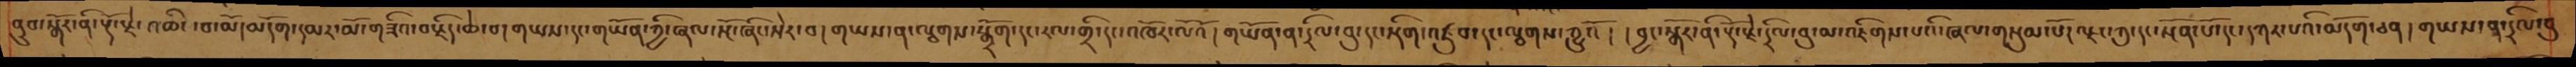ནུབ་སྒོར་ནི་རྡོ་རྗེ་འཆིང་བ་མོ།མདོག་དམར་མོ་གཟིའ་བརྗིད་ཆེ་བ།གཡས་དང་གཡོན་ཀྱི་ཞལ་སྔོ་ཞིང་སེར་བ། གཡས་ན་ལྕགས་སྒྲོག་དང་རལ་གྲི་དང་འཁོར་ལོའོ། གཡོན་ན་དྲིལ་བུ་དང་སྡིག་འཛུབ་དང་ལྕགས་ཀྱུའོ ། ། བྱང་སྒོར་ནི་རྡོ་རྗེ་དྲིལ་བུ་མ་འཇིགས་པའི་ཞལ་གསུམ་པོ།ལྗང་ཀུ་དང་སྔོན་པོ་དང་དཀར་པའི་མདོག་ཅན ། གཡས་ན་དྲིལ་བུ
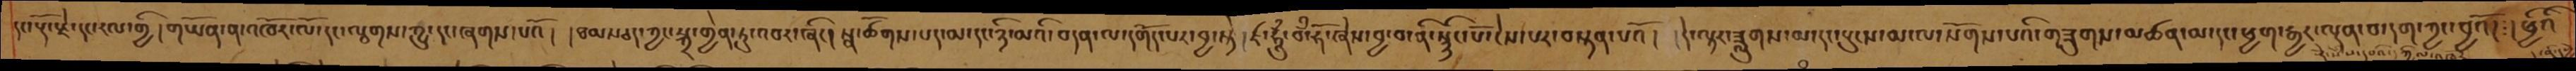དང་རྡོ་རྗེ་དང་རལ་གྱི། གཡོན་ན་འཁོར་ལོ་དང་ལྕགས་ཀྱུ་དང་ཞགས་པའོ། །ཐམས་ཅད་ཀྱང་སྐྲ་གྱེན་ཏུ་འབར་ཞིང། སྣ་ཚོགས་པད་མ་དང་ཉི་མའི་བདན་པ་དགོད་པར་བྱ་སྟེ།  ཛ་ཧཱུྃ་བྃ་ཧོ་ཞེས་བྱ་བ་ནི་སྙིང་པོ་ངེས་པར་བསྟན་པའོ། དེ་ལྟར་ཟླུགས་མ་དང་དཔུངས་མ་ལ་སོགས་པའི་གཟུགས་མཚན་མ་དང་ཕྱག་རྒྱར་ལྡན་པ་དག་ཀྱང་བྱའོ། །ཕྱིའི
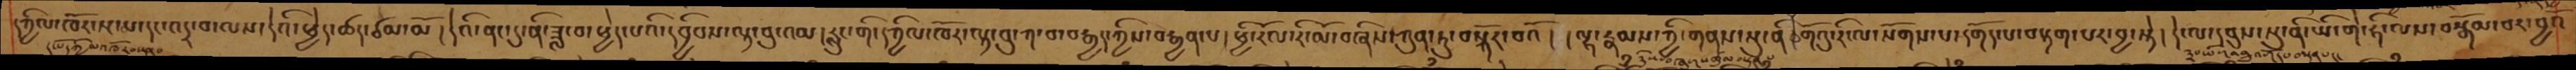དཀྱིལ་འཁོར་སྔ་མ་དང་འདྲ་བ་ལས་དེའི་ཕྱེད་ཚད་ཙམ་མོ། དེའི་ནང་དུ་ནི་ཟླ་བ་ཕྱེད་པའི་དབྱིབས་ལྟ་བུ་འམ། རླུང་གི་དཀྱིལ་འཁོར་ལྟ་བུ་ཀ་བ་བརྒྱད་ཀྱིས་བརྒྱན་པ། ཕྱི་རོལ་རི་མོ་བཞིས་ཀུན་ཏུ་བསྐོར་བའོ། །ལྷ་རྣམས་ཀྱི་གནས་སུ་ནི་གོའུ་རི་ལ་སོགས་པ་དགོད་པ་བརྟག་པར་བྱ་སྟེ། དེ་ལ་དབུས་སུ་ནི་ཡི་གེ་ཧི་ལས་བསྒོམ་པར་བྱའོ
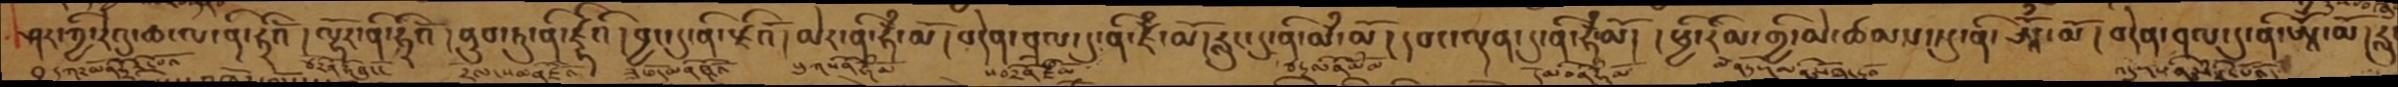ཤར་ཀྱི་རེའུ་ཆ་ལ་ནི་ཧྲིའོ། ལྷོར་ནི་ཧྲིའོ། ནུབ་ཏུ་ནི་ཛྷིའི། བྱང་དུ་ནི་རྗིའོ། མེར་ནི་ཧྃ་མོ། བདེན་བྲལ་དུ་ནི་ཛོྃ་མོ། རླུང་དུ་ནི་མྃ་མོ། དབང་ལྡན་དུ་ནི་ཧྃ་མོ། །ཕྱི་རིམ་གྱི་མེ་ཚམས་སུ་ནི་ཨཱོྃ་མོ། བདེན་བྲལ་དུ་ནི་ཨཱོྃ་མོ། རླུང་
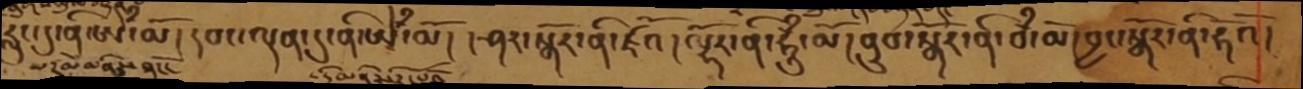རླུང་དུ་ནི་ཨེྃ་མོ། དབང་ལྡན་དུ་ནི་ཨཱེྃ་མོ། །ཤར་སྒོར་ནི་ཛའོ། ལྷོར་ནི་ཧཱུྃ་མོ། ནུབ་སྒོར་ནི་བྃ་མོ། བྱང་སྒོར་ནི་ཧོའོ།
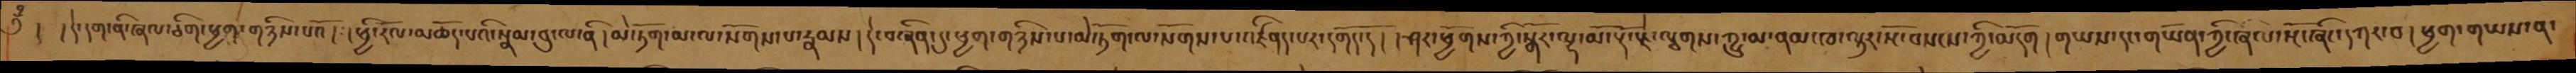༄ྃ། །དེ་དག་ནི་ཞལ་ཅིག་ཕྱག་གཉིས་པའོ། །ཕྱི་རོལ་མཆོད་པའི་སྣམ་བུ་ལ་ནི། མེ་ཏོག་མ་ལ་སོགས་པ་རྣམས། དེ་བཞིན་དུ་ཕྱག་གཉིས་པ་མེ་ཏོག་ལ་སོགས་པ་འཛིནད་པར་དགོད་དོ། །ཤར་ཕྱོགས་ཀྱི་སྒོར་ལྷ་མོ་རྡོ་རྗེ་ལྕགས་ཀྱུ་མ་ནམ་ཁ་ལྟར་སོ་བསངས་ཀྱི་མདོག། གཡས་དང་གཡོན་ཀྱི་ཞལ་སྔོ་ཞིང་དཀར་བ། ཕྱག་གཡས་ན་
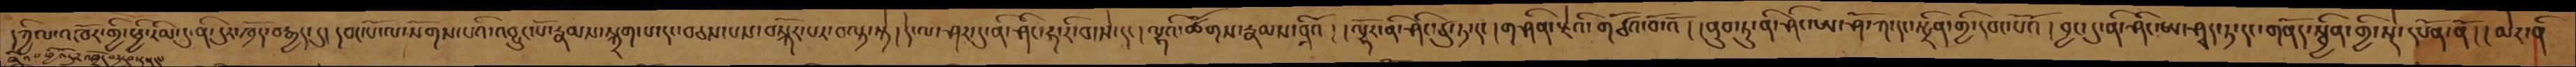དཀྱིལ་འཁོར་གྱི་ཕྱི་རིམ་དུ་ནི་དུར་ཁྲོད་བརྒྱད་དུ། དབང་པོ་ལ་སོགས་པའི་འབྱུང་པོ་རྣམས་སྐྲག་པ་དང་བཅས་པས་བསྐོར་པར་བལྟ་སྟེ། དེ་ལ་ཤར་དུ་ནི་ཤིང་ཧ་རི་བ་སེ་དང། ལྷའི་ཚོགས་རྣམས་ཤིའོ། ལྷོར་ནི་ཤིང་ཙུ་ཏ་དང། གཤིན་རྗེའི་གཙོའ་བོ་འོ། ནུབ་ཏུ་ནི་ཤིང་ཨ་ཤོ་ཀ་དང་སྤྲིན་གྱི་དབང་༷པོའོ། བྱང་དུ་ནི་ཤིང་ཨ་ཤྭད་ཏ་དང་གནོད་སྦྱིན་གྱི་སྡེ་དཔོན་ནོ། །མེར་ནི་
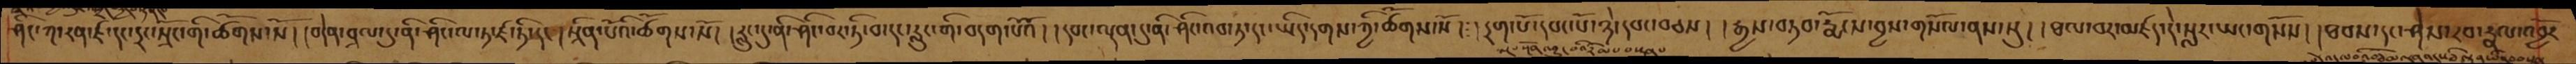ཤིང་ཀ་རན་ཛ་དང་དྲང་སྲོང་གི་ཚོགས་སོ། །བདེན་བྲལ་དུ་ནི་ཤིང་ལ་ཏ་ཛ་ཏི་དང། །སྲིན་པོའི་ཚོགས་སོ། །རླུང་དུ་ནི་ཤིང་བར་ཏི་བ་དང་རླུང་གི་བདག་པོའོ། །དབང་ལྡན་དུ་ནི་ཤིང་འམ་ཏ་དང་ཡིད་དགས་ཀྱི་ཚོགས་སོ། །དྲག་པོ་དབང་པོ་ཉེ་དབང་བཅས། །རྒྱས་བཏབ་རྨོངས་བྱས་གསོལ་ནས་སུ། །ཐལ་བར་མཛད་དེ་སླར་ཡང་གསོས། །ཐབས་དང་ཤེས་རབ་རྣལ་འབྱོར
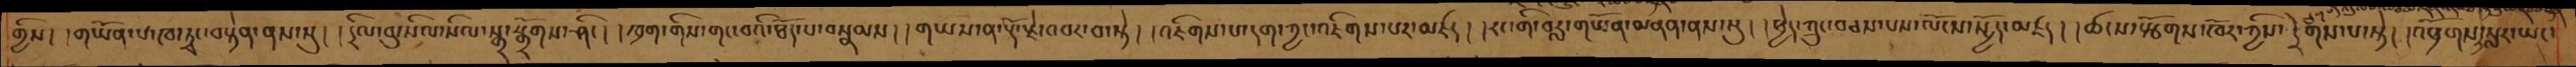གྱིས། །གཡོན་པ་ཁ་ཏྭང་བསྟེན་ནས་སུ། །དྲིལ་བུ་སིལ་སིལ་སྒྲ་སྒྲོགས་ཤིང། །ཁྲག་གིས་གང་བའི་ཐོད་པ་བསྣམས། །གཡས་ན་རྡོ་རྗེ་འབར་བ་སྟེ། །འཇིགས་པ་དག་ཀྱང་འཇིགས་པར་མཛད། །རང་གི་བརླ་གཡོན་མནན་ནས་སུ། །ཕྱེད་ཀྲུང་བཅས་པས་ལོངས་སྤྱོད་མཛད། །ཚངས་སྩོགས་ཁོར་ཀྱིས་དྲེགས་པ་སྟེ། །འཕྲོགས་ཏེ་སླར་ཡང་
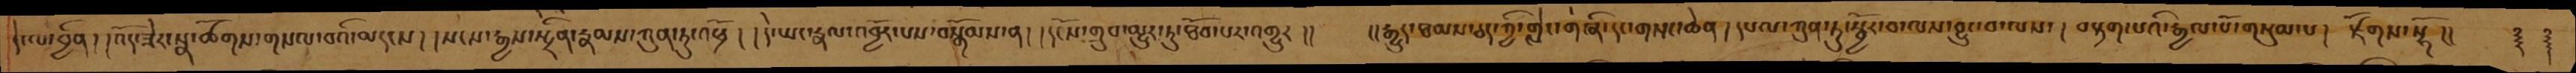དེ་ལ་བྱིན། །འོད་ཟེར་སྣ་ཚོགས་གསལ་བའི་མདངས། །སངས་རྒྱས་སྤྲིན་རྣམས་ཀུན་ཏུ་འཕྲོ། །དེ་ཡང་རྣལ་འབྱོར་པས་བསྒོམས་ན། །དངོས་གྲུབ་མྱུར་ཏུ་ཐོབ་པར་འགྱུར །།  །།རྒྱུད་ཐམས་ཅད་ཀྱི་གླེང་གཞི་དང་གསང་ཆེན། དཔལ་ཀུན་ཏུ་སྦྱོར་བ་ལས་བྱུང་བ་ལས་ ། བརྟག་པའི་རྒྱལ་པོ་གསུམ་པ །  རྫོགས་སྷོ །། ༈ ༈
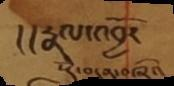།།རྣལ་འབྱོར
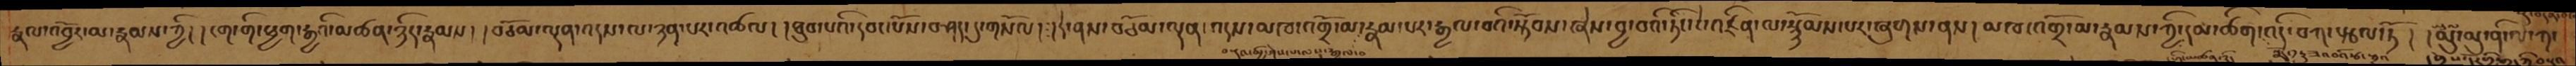རྣལ་འབྱོར་མ་རྣམས་ཀྱི། །ངག་གི་ཕྱག་རྒྱའི་མཚན་ཉིད་རྣམས། །བཅོམ་ལྡན་འདས་ལ་ཉན་པར་འཚལ། །ཐུབ་པའི་དབང་པོས་བཤད་དུ་གསོལ། །དེ་ནས་བཅོམ་ལྡན་འདས་མཁ་འགྲོ་མ་རྣམ་པར་རྒྱལ་བའི་སྟོབས་ཞེས་བྱ་བའི་ཏིང་ངེ་འཛིན་ལ་སྙོམས་པར་ཞུགས་ནས ། མཁ་འགྲོ་མ་རྣམས་ཀྱི་དམ་ཚིག་འདི་བཀ་སྩལ་ཏོ ། །མུ་མུ་ནི་ལ་ཀ་
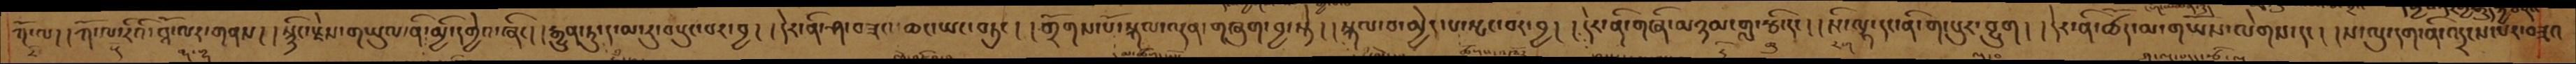ཀོ་ལ། །ཀོ་ལ་རིའི་བཱོ་ལར་གནས། །སྙིང་རྗེས་གཡུལ་ནི་མྱི་དགྱེའ་ཞིང། །རྒྱུན་ཏུ་ད་མ་རུ་བསྲུང་པར་བྱ། །དེར་ནི་ཤ་བཟང་ཆང་ཡང་བཏུང། །གྲོགས་པོ་སྐལ་ལྡན་གཞུག་བྱ་སྟེ། །སྐལ་བ་མྱེད་པ་སྤང་བར་བྱ། །དེར་ནི་གཞི་མཉམ་གླ་རྩི་དང། །སི་ལྷ་དང་ནི་ག་བུར་བྱུག། །དེར་ནི་ཚད་མ་གཡོས་ལེགས་དང། །ས་ལུ་དག་ནི་འདྲངས་པར་བཟའ
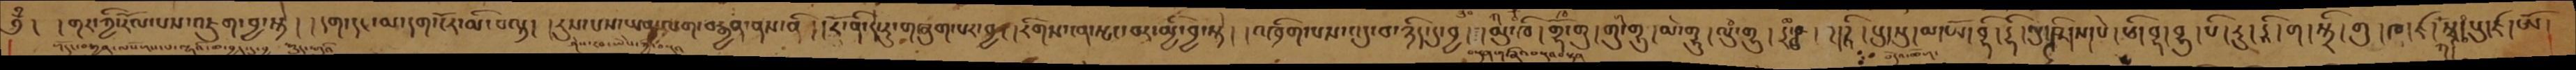༄ྃ།  །གར་གྱི་རོལ་པས་འཇུག་བྱ་སྟེ། །དག་དང་མ་དག་ངོར་མི་བལྟ། །རུས་པས་ཡན་ལག་བརྒྱན་ནས་ནི། །རོ་ནི་དེ་རུ་གཞུག་པར་བྱ། །རིགས་ངན་སྤང་བར་མྱི་བྱ་སྟེ། །འཁྲིག་པས་འདུ་བ་ཉིད་དུ་བྱ། །མུ་ཁི། གྷོ་གུ། གུ་གྷུ། མེ་གྷུ། ལུཾ་གྷུ། དྲ་ཤ། ཌ །ཌཱི། སུ་སུ། མ་ཡོ་བྷི། དྷི། སུ་ཥྚི།ས།པེ། ཕི།བྷ།བྷ། པི།རུ། ཌཱི། ག། སྟྲི། གུ། ཁ། ཛ།ཀ།སྭ། སུ།ཛ། ཨོ།
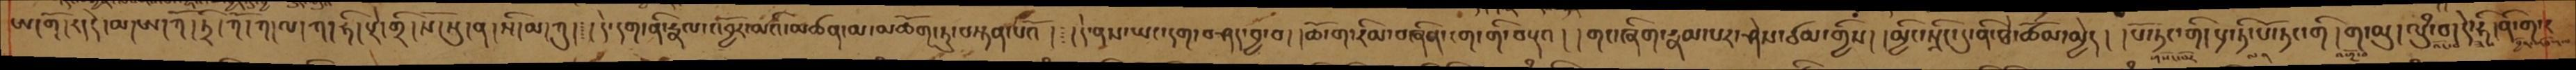ཨ།གོ།ར།རེ།མ།ཨ།ཀོ།ཏྲི།ཀོ།ཀ།ལ།ཀ།ཧི།པྲེ།གྲི།སོ།སུ།ན།སི།མ།ཀུ། །དེ་དག་ནི་རྣལ་འབྱོར་མའི་མཚན་མ་མཆོག་ཏུ་བསྟན་པའོ ། །དེ་ནས་ཡང་དག་བཤད་བྱ་བ། །ཆོ་ག་རིམ་བཞིན་ངག་གི་བརྡའ། །གང་ཞིག་རྣམ་པར་ཤེས་ཙམ་གྱིས། །མྱིང་སྲིང་དུ་ནི་ཐེ་ཚོམ་མྱེད ། །པོ་ཏང་གི།པྲེ་ཏི་པོ་ཏང་གི ། ག་མུ། ལུཾ་བ། དེ་དྷི། ནི་ག་
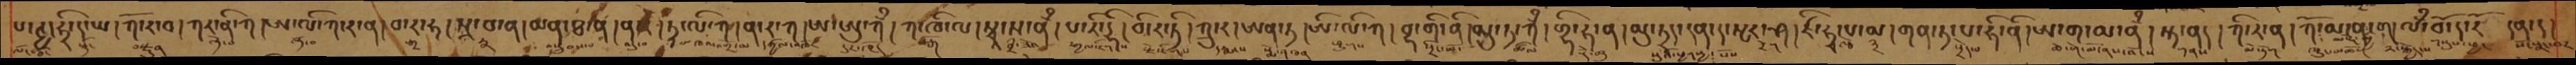པ་ཊྱ་ཧྲི་ད་ཡ། ཀོ་ར་བ། ཀར་ནི་ཀ། ཨ་ལི་ཀ་ར་ན། བ་ར་ཧ། པྲ་བ་ན། མན་ཐ་ན། ནཛ། ཏྭ་ལི་ཀ། ན་ར་ཀ། ཨ་ཨུ་ཀྃ། ཀ་ཁི་ལ། སྭ་ས་ནྃ། པ་རི་དྷི། བི་ར་ཏི། ཀུ་ར། ཨན་ཏ། ཨི་ལི་ཀ། བྷ་གི་ནི། ཤུར་ཏ་ཀྃ། གྷི་ཧི་ན། མུ་ཏུད་དན་ད་སྤར་ཤ། ཛི་ཧྭ་ས་མ། གན་ཏ་པ་ཧེ་ནི། ཨ་ག་མ་ནྃ། སྟ་ན། ཀི་ར་ན། ཀོ་མ་ན་ག་ལྃ་བོ་ད་རོ  དན་ད།
